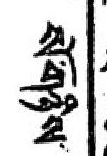སོ་གཉིས་
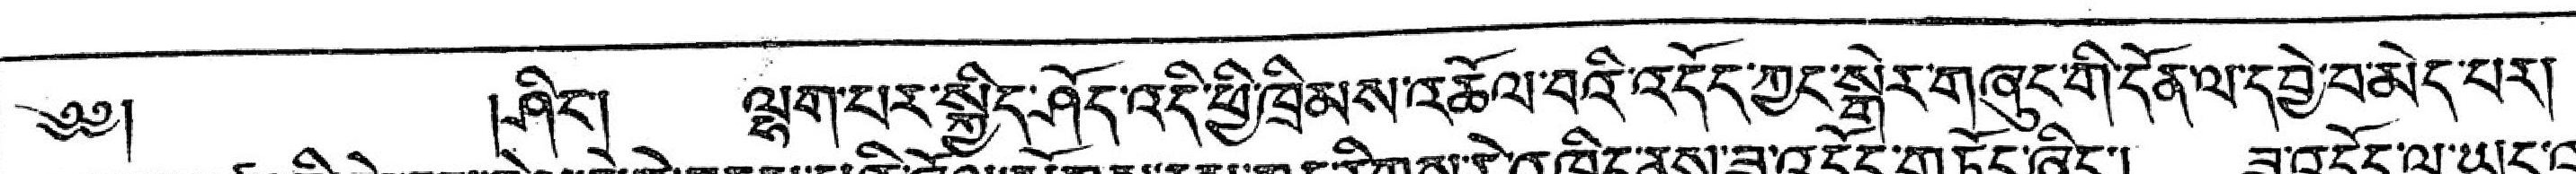༄༅།  །ཤིང་། ལྷག་པར་སྐྱིད་ཤོད་འདི་ཕྱི་ཁྲིམས་འཆོལ་བའི་དོད་ཀྱང་སྒེར་གཞུང་གི་དོན་ལ་དབྱེ་བ་མེད་པར།
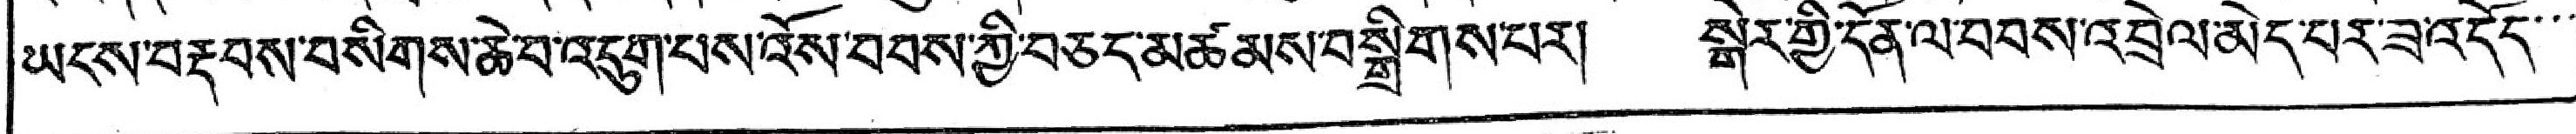ཡངས་བརྡབས་བསིགས་ཆེ་བ་འདུག་པས་འོས་བབས་ཀྱི་བཅད་མཚམས་བསྒྲིགས་པར། སྒེར་གྱི་དོན་ལ་བབས་འབྲེལ་མེད་པར་ཟ་འདོད་་་
